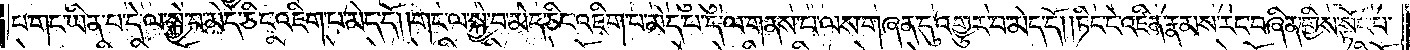པ་གང་ཡིན་པ་དེ་ལ་སྐྱེ་བ་མེད་ཅིང་འཇིག་པ་མེད་དོ། །གང་ལ་སྐྱེ་བ་མེད་ཅིང་འཇིག་པ་མེད་པ་དེ་ལ་གནས་པ་ལས་གཞན་དུ་འགྱུར་བ་མེད་དོ། །ཏིང་ངེ་འཛིན་རྣམས་རང་བཞིན་གྱིས་སྟོང་པ་
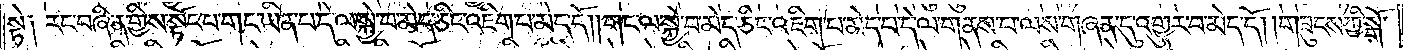སྟེ། རང་བཞིན་གྱིས་སྟོང་པ་གང་ཡིན་པ་དེ་ལ་སྐྱེ་བ་མེད་ཅིང་འཇིག་པ་མེད་དོ། །གང་ལ་སྐྱེ་བ་མེད་ཅིང་འཇིག་པ་མེད་པ་དེ་ལ་གནས་པ་ལས་གཞན་དུ་འགྱུར་བ་མེད་དོ། །གཟུངས་ཀྱི་སྒོ་
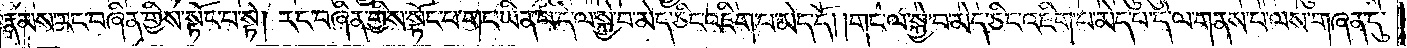རྣམས་རང་བཞིན་གྱིས་སྟོང་པ་སྟེ། རང་བཞིན་གྱིས་སྟོང་པ་གང་ཡིན་པ་དེ་ལ་སྐྱེ་བ་མེད་ཅིང་འཇིག་པ་མེད་དོ། །གང་ལ་སྐྱེ་བ་མེད་ཅིང་འཇིག་པ་མེད་པ་དེ་ལ་གནས་པ་ལས་གཞན་དུ་
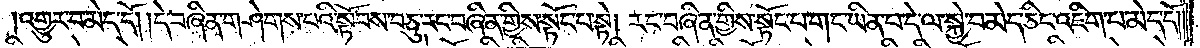འགྱུར་བ་མེད་དོ། །དེ་བཞིན་གཤེགས་པའི་སྟོབས་བཅུ་རང་བཞིན་གྱིས་སྟོང་པ་སྟེ། རང་བཞིན་གྱིས་སྟོང་པ་གང་ཡིན་པ་དེ་ལ་སྐྱེ་བ་མེད་ཅིང་འཇིག་པ་མེད་དོ། །
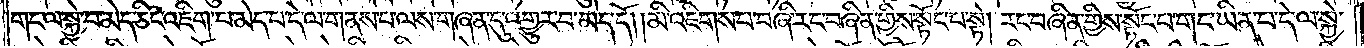གང་ལ་སྐྱེ་བ་མེད་ཅིང་འཇིག་པ་མེད་པ་དེ་ལ་གནས་པ་ལས་གཞན་དུ་འགྱུར་བ་མེད་དོ། །མི་འཇིགས་པ་བཞི་རང་བཞིན་གྱིས་སྟོང་པ་སྟེ། རང་བཞིན་གྱིས་སྟོང་པ་གང་ཡིན་པ་དེ་ལ་སྐྱེ་
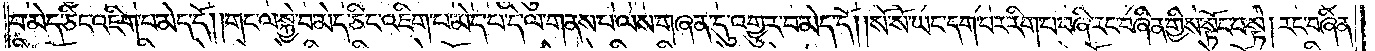བ་མེད་ཅིང་འཇིག་པ་མེད་དོ། །གང་ལ་སྐྱེ་བ་མེད་ཅིང་འཇིག་པ་མེད་པ་དེ་ལ་གནས་པ་ལས་གཞན་དུ་འགྱུར་བ་མེད་དོ། །སོ་སོ་ཡང་དག་པར་རིག་པ་བཞི་རང་བཞིན་གྱིས་སྟོང་པ་སྟེ། རང་བཞིན་
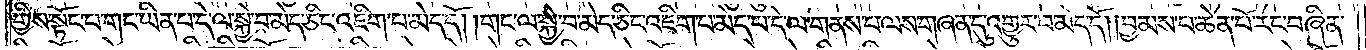གྱིས་སྟོང་པ་གང་ཡིན་པ་དེ་ལ་སྐྱེ་བ་མེད་ཅིང་འཇིག་པ་མེད་དོ། །གང་ལ་སྐྱེ་བ་མེད་ཅིང་འཇིག་པ་མེད་པ་དེ་ལ་གནས་པ་ལས་གཞན་དུ་འགྱུར་བ་མེད་དོ། །བྱམས་པ་ཆེན་པོ་རང་བཞིན་
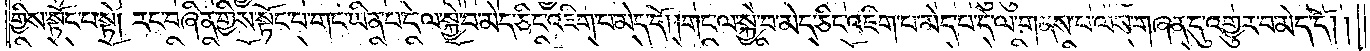གྱིས་སྟོང་པ་སྟེ། རང་བཞིན་གྱིས་སྟོང་པ་གང་ཡིན་པ་དེ་ལ་སྐྱེ་བ་མེད་ཅིང་འཇིག་པ་མེད་དོ། །གང་ལ་སྐྱེ་བ་མེད་ཅིང་འཇིག་པ་མེད་པ་དེ་ལ་གནས་པ་ལས་གཞན་དུ་འགྱུར་བ་མེད་དོ། །
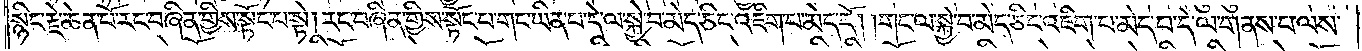སྙིང་རྗེ་ཆེན་པོ་རང་བཞིན་གྱིས་སྟོང་པ་སྟེ། རང་བཞིན་གྱིས་སྟོང་པ་གང་ཡིན་པ་དེ་ལ་སྐྱེ་བ་མེད་ཅིང་འཇིག་པ་མེད་དོ། །གང་ལ་སྐྱེ་བ་མེད་ཅིང་འཇིག་པ་མེད་པ་དེ་ལ་གནས་པ་ལས་
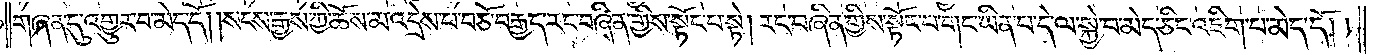གཞན་དུ་འགྱུར་བ་མེད་དོ། །སངས་རྒྱས་ཀྱི་ཆོས་མ་འདྲེས་པ་བཅོ་བརྒྱད་རང་བཞིན་གྱིས་སྟོང་པ་སྟེ། རང་བཞིན་གྱིས་སྟོང་པ་གང་ཡིན་པ་དེ་ལ་སྐྱེ་བ་མེད་ཅིང་འཇིག་པ་མེད་དོ། །
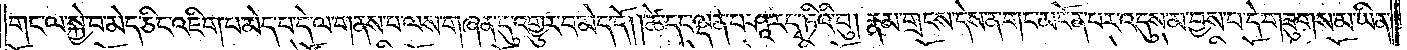གང་ལ་སྐྱེ་བ་མེད་ཅིང་འཇིག་པ་མེད་པ་དེ་ལ་གནས་པ་ལས་གཞན་དུ་འགྱུར་བ་མེད་དོ། །ཚེ་དང་ལྡན་པ་ཤཱ་ར་དྭ་ཏིའི་བུ། རྣམ་གྲངས་དེས་ན་གང་མངོན་པར་འདུས་མ་བྱས་པ་དེ་གཟུགས་མ་ཡིན་
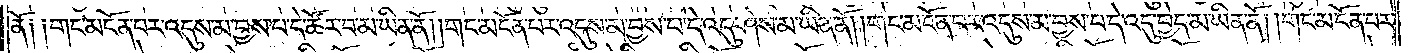ནོ། །གང་མངོན་པར་འདུས་མ་བྱས་པ་དེ་ཚོར་བ་མ་ཡིན་ནོ། །གང་མངོན་པར་འདུས་མ་བྱས་པ་དེ་འདུ་ཤེས་མ་ཡིན་ནོ། །གང་མངོན་པར་འདུས་མ་བྱས་པ་དེ་འདུ་བྱེད་མ་ཡིན་ནོ། །གང་མངོན་པར་
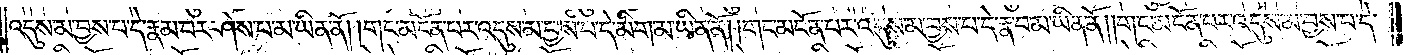འདུས་མ་བྱས་པ་དེ་རྣམ་པར་ཤེས་པ་མ་ཡིན་ནོ། །གང་མངོན་པར་འདུས་མ་བྱས་པ་དེ་མིག་མ་ཡིན་ནོ། །གང་མངོན་པར་འདུས་མ་བྱས་པ་དེ་རྣ་བ་མ་ཡིན་ནོ། །གང་མངོན་པར་འདུས་མ་བྱས་པ་དེ་
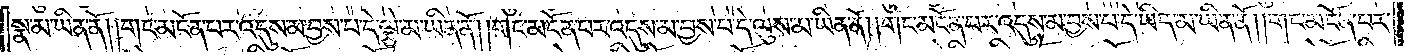སྣ་མ་ཡིན་ནོ། །གང་མངོན་པར་འདུས་མ་བྱས་པ་དེ་ལྕེ་མ་ཡིན་ནོ། །གང་མངོན་པར་འདུས་མ་བྱས་པ་དེ་ལུས་མ་ཡིན་ནོ། །གང་མངོན་པར་འདུས་མ་བྱས་པ་དེ་ཡིད་མ་ཡིན་ནོ། །གང་མངོན་པར་
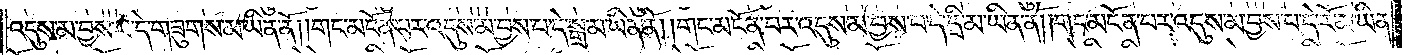འདུས་མ་བྱས་པ་དེ་གཟུགས་མ་ཡིན་ནོ། །གང་མངོན་པར་འདུས་མ་བྱས་པ་དེ་སྒྲ་མ་ཡིན་ནོ། །གང་མངོན་པར་འདུས་མ་བྱས་པ་དེ་དྲི་མ་ཡིན་ནོ། །གང་མངོན་པར་འདུས་མ་བྱས་པ་དེ་རོ་མ་ཡིན་
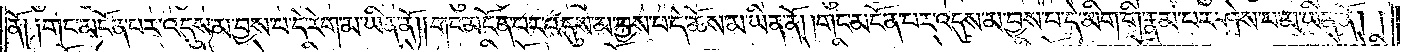ནོ༑ ༑གང་མངོན་པར་འདུས་མ་བྱས་པ་དེ་རེག་མ་ཡིན་ནོ། །གང་མངོན་པར་འདུས་མ་བྱས་པ་དེ་ཆོས་མ་ཡིན་ནོ། །གང་མངོན་པར་འདུས་མ་བྱས་པ་དེ་མིག་གི་རྣམ་པར་ཤེས་པ་མ་ཡིན་ནོ། །
